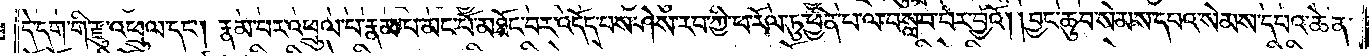དེ་དག་གི་རྫུ་འཕྲུལ་དང༌། རྣམ་པར་འཕྲུལ་པ་རྣམ་པ་མང་པོ་མཐོང་བར་འདོད་པས་ཤེས་རབ་ཀྱི་ཕ་རོལ་ཏུ་ཕྱིན་པ་ལ་བསླབ་པར་བྱའོ། །བྱང་ཆུབ་སེམས་དཔའ་སེམས་དཔའ་ཆེན་
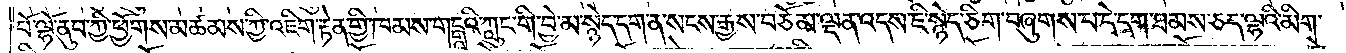པོ་ལྷོ་ནུབ་ཀྱི་ཕྱོགས་མཚམས་ཀྱི་འཇིག་རྟེན་གྱི་ཁམས་གངྒཱའི་ཀླུང་གི་བྱེ་མ་སྙེད་དག་ན་སངས་རྒྱས་བཅོམ་ལྡན་འདས་ཇི་སྙེད་ཅིག་བཞུགས་པ་དེ་དག་ཐམས་ཅད་ལྷའི་མིག་
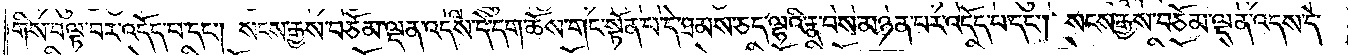གིས་བལྟ་བར་འདོད་པ་དང༌། སངས་རྒྱས་བཅོམ་ལྡན་འདས་དེ་དག་ཆོས་གང་སྟོན་པ་དེ་ཐམས་ཅད་ལྷའི་རྣ་བས་མཉན་པར་འདོད་པ་དང༌། སངས་རྒྱས་བཅོམ་ལྡན་འདས་དེ་
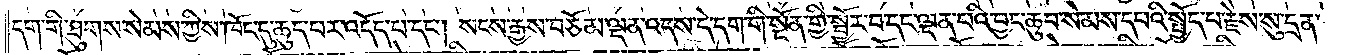དག་གི་ཐུགས་སེམས་ཀྱིས་ཁོང་དུ་ཆུད་པར་འདོད་པ་དང༌། སངས་རྒྱས་བཅོམ་ལྡན་འདས་དེ་དག་གི་སྔོན་གྱི་སྦྱོར་བ་དང་ལྡན་པའི་བྱང་ཆུབ་སེམས་དཔའི་སྤྱོད་པ་རྗེས་སུ་དྲན་
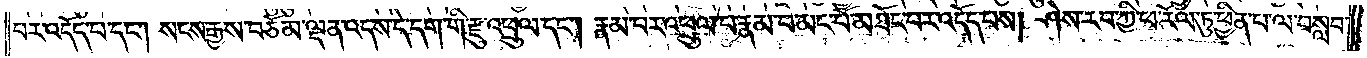པར་འདོད་པ་དང༌། སངས་རྒྱས་བཅོམ་ལྡན་འདས་དེ་དག་གི་རྫུ་འཕྲུལ་དང༌། རྣམ་པར་འཕྲུལ་པ་རྣམ་པ་མང་པོ་མཐོང་བར་འདོད་པས། ཤེས་རབ་ཀྱི་ཕ་རོལ་ཏུ་ཕྱིན་པ་ལ་བསླབ་
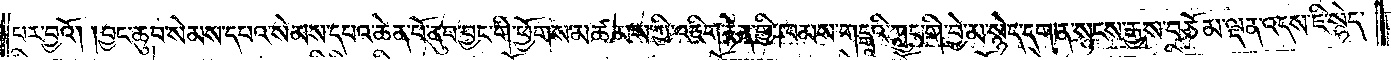པར་བྱའོ། །བྱང་ཆུབ་སེམས་དཔའ་སེམས་དཔའ་ཆེན་པོ་ནུབ་བྱང་གི་ཕྱོགས་མཚམས་ཀྱི་འཇིག་རྟེན་གྱི་ཁམས་གངྒཱའི་ཀླུང་གི་བྱེ་མ་སྙེད་དག་ན་སངས་རྒྱས་བཅོམ་ལྡན་འདས་ཇི་སྙེད་
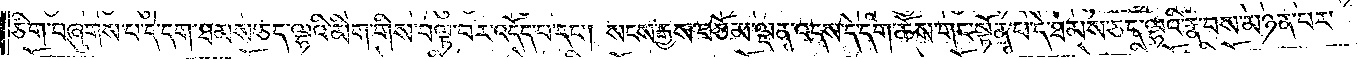ཅིག་བཞུགས་པ་དེ་དག་ཐམས་ཅད་ལྷའི་མིག་གིས་བལྟ་བར་འདོད་པ་དང༌། སངས་རྒྱས་བཅོམ་ལྡན་འདས་དེ་དག་ཆོས་གང་སྟོན་པ་དེ་ཐམས་ཅད་ལྷའི་རྣ་བས་མཉན་པར་
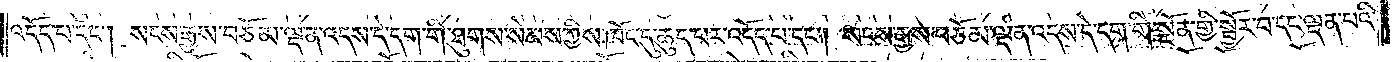འདོད་པ་དང༌། སངས་རྒྱས་བཅོམ་ལྡན་འདས་དེ་དག་གི་ཐུགས་སེམས་ཀྱིས་ཁོང་དུ་ཆུད་པར་འདོད་པ་དང༌། སངས་རྒྱས་བཅོམ་ལྡན་འདས་དེ་དག་གི་སྔོན་གྱི་སྦྱོར་བ་དང་ལྡན་པའི་
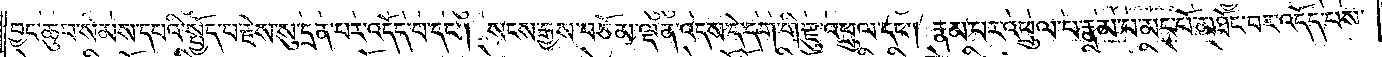བྱང་ཆུབ་སེམས་དཔའི་སྤྱོད་པ་རྗེས་སུ་དྲན་པར་འདོད་པ་དང༌། སངས་རྒྱས་བཅོམ་ལྡན་འདས་དེ་དག་གི་རྫུ་འཕྲུལ་དང༌། རྣམ་པར་འཕྲུལ་པ་རྣམ་པ་མང་པོ་མཐོང་བར་འདོད་པས་
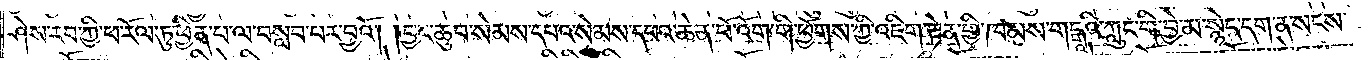ཤེས་རབ་ཀྱི་ཕ་རོལ་ཏུ་ཕྱིན་པ་ལ་བསླབ་པར་བྱའོ། །བྱང་ཆུབ་སེམས་དཔའ་སེམས་དཔའ་ཆེན་པོ་འོག་གི་ཕྱོགས་ཀྱི་འཇིག་རྟེན་གྱི་ཁམས་གངྒཱའི་ཀླུང་གི་བྱེ་མ་སྙེད་དག་ན་སངས་
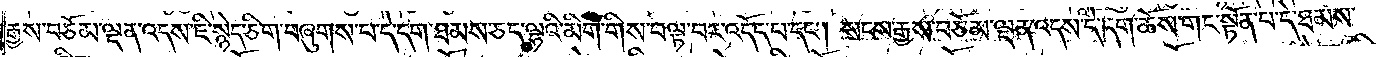རྒྱས་བཅོམ་ལྡན་འདས་ཇི་སྙེད་ཅིག་བཞུགས་པ་དེ་དག་ཐམས་ཅད་ལྷའི་མིག་གིས་བལྟ་བར་འདོད་པ་དང༌། སངས་རྒྱས་བཅོམ་ལྡན་འདས་དེ་དག་ཆོས་གང་སྟོན་པ་དེ་ཐམས་
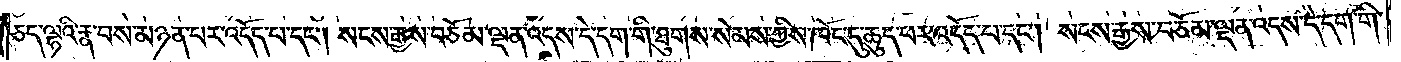ཅད་ལྷའི་རྣ་བས་མཉན་པར་འདོད་པ་དང༌། སངས་རྒྱས་བཅོམ་ལྡན་འདས་དེ་དག་གི་ཐུགས་སེམས་ཀྱིས་ཁོང་དུ་ཆུད་པར་འདོད་པ་དང༌། སངས་རྒྱས་བཅོམ་ལྡན་འདས་དེ་དག་གི་
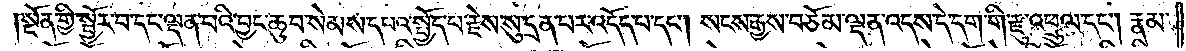སྔོན་གྱི་སྦྱོར་བ་དང་ལྡན་པའི་བྱང་ཆུབ་སེམས་དཔའ་སྤྱོད་པ་རྗེས་སུ་དྲན་པར་འདོད་པ་དང༌། སངས་རྒྱས་བཅོམ་ལྡན་འདས་དེ་དག་གི་རྫུ་འཕྲུལ་དང༌། རྣམ་
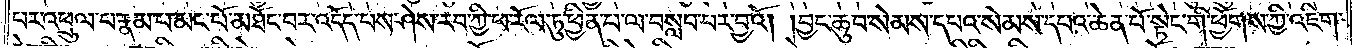པར་འཕྲུལ་པ་རྣམ་པ་མང་པོ་མཐོང་བར་འདོད་པས་ཤེས་རབ་ཀྱི་ཕ་རོལ་ཏུ་ཕྱིན་པ་ལ་བསླབ་པར་བྱའོ། །བྱང་ཆུབ་སེམས་དཔའ་སེམས་དཔའ་ཆེན་པོ་སྟེང་གི་ཕྱོགས་ཀྱི་འཇིག་
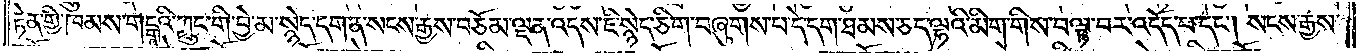རྟེན་གྱི་ཁམས་གངྒཱའི་ཀླུང་གི་བྱེ་མ་སྙེད་དག་ན་སངས་རྒྱས་བཅོམ་ལྡན་འདས་ཇི་སྙེད་ཅིག་བཞུགས་པ་དེ་དག་ཐམས་ཅད་ལྷའི་མིག་གིས་བལྟ་བར་འདོད་པ་དང༌། སངས་རྒྱས་
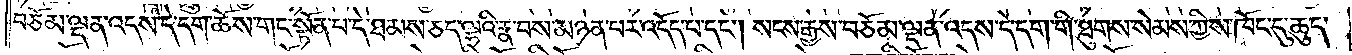བཅོམ་ལྡན་འདས་དེ་དག་ཆོས་གང་སྟོན་པ་དེ་ཐམས་ཅད་ལྷའི་རྣ་བས་མཉན་པར་འདོད་པ་དང༌། སངས་རྒྱས་བཅོམ་ལྡན་འདས་དེ་དག་གི་ཐུགས་སེམས་ཀྱིས་ཁོང་དུ་ཆུད་
